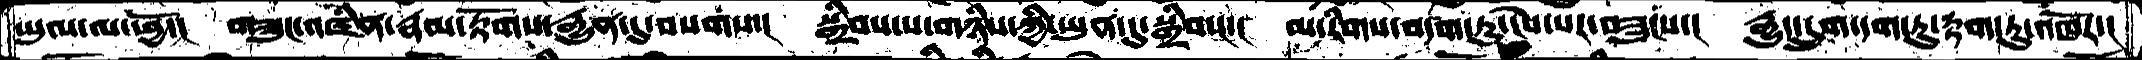ཡུལ་ལ་ཕྱོ་།  གཟུང་འཛིན་རྣམ་རྟོགས་རྒྱུན་དུ་བསགས་།  སྒྲིབ་པ་གཉིས་ཀྱི་ཡུན་དུ་སྒྲིབས་།  མ་རིགས་བདག་ཏུ་ངེས་པར་བཟུངས་།  རྒྱུད་དྲུག་དག་ཏུ་རྟག་ཏུ་འཁོར་།
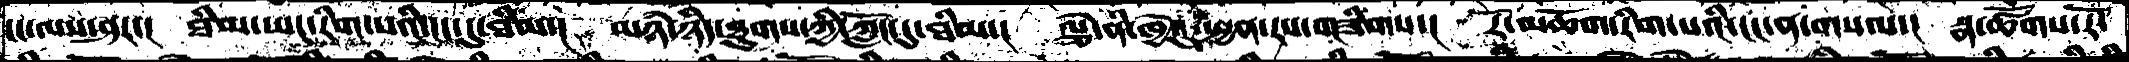ངང་ལས་ཤར་།  ཐིམ་ཡང་རིག་པའི་ངང་དུ་ཐིམ་།  མཉཾ་ཉིད་ཐུགས་ཀྱི་ཀློང་དུ་ཐིམ་།  ལྕེ་ནི་ཁྱེའུ་སྤྱན་རས་གཟིགས་།  རོ་མཆོག་རིག་པའི་ངང་ན་གསལ་།  སྣ་ཚོགས་རོ་
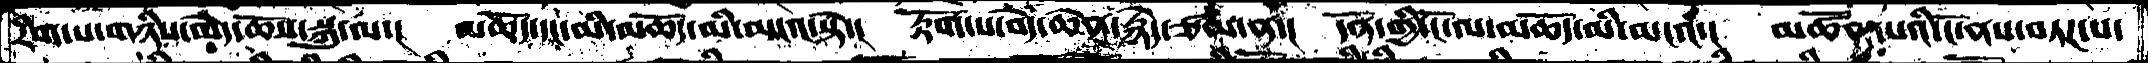རིག་པ་གཉིས་མེད་ཆོས་སྐུ་ལ་།  མཆོད་དང་མི་མཆོད་མི་མངའ་སྟེ་།  རྟོག་པ་བདེ་ཆེན་རྙེད་ཙམ་ན་།  དོན་གྱི་ངོ་ལ་མཆོད་མི་མངའ་།  མཚོན་པའི་ངོ་ནས་བཏཌ་པ་
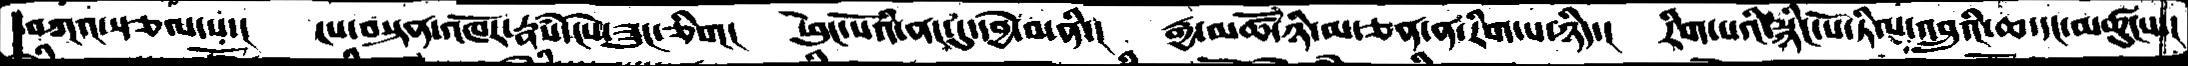བཀའ་སྩལ་པ་།   ངས་བསྟན་འཁོར་རྣཾས་ངེས་ཟུང་ཅིག།  ཕུང་པོའི་ནང་དུ་དབྱེ་བ་ནི་།  རྒྱ་མཚོ་ཉི་མ་ཅན་ན་རིག་པ་ཉིད་།  རིག་པའི་སྙིང་པོ་ཏིལ་འབྲུའི་ཆ་དང་མཚུངས་།
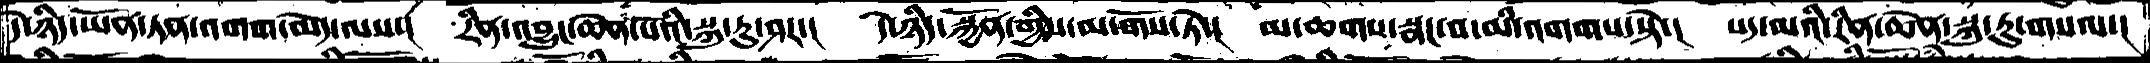དེ་ཉིད་ཡོན་ཏན་འགག་མེད་ལས་།  རིན་འབྱུང་ཆེན་པོའི་སྐུ་རུ་ཤར་།  དེ་ཉིད་སྐྱོན་གྱིས་མ་གོས་ཏེ་།  མ་ཆགས་སྣང་བ་མི་འགགས་སྟེ་།  པད་མའི་རིན་ཆེན་སྐུ་རུ་གསལ་།
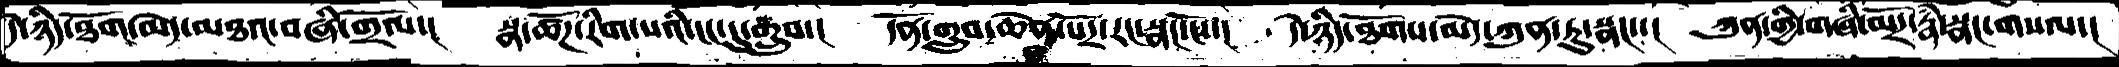དེ་ཉིད་ཐོག་མེད་མཐའ་བཞི་གྲོལ་།  སྣ་ཚོཌ་རིག་པའི་ངང་དུ་གྲུབ་།  དོན་གྲུབ་ཆེན་པོར་རང་སྣང་ངོ་་།  དེ་ཉིད་ཐོགས་མེད་ཀུན་ཏུ་སྣང་་།  ཀུན་གྱི་གཞི་མོར་རྣཾ་སྣང་གསལ་།
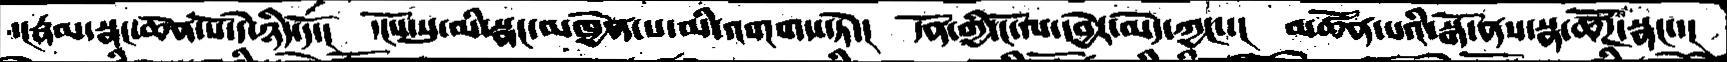་།རྣམ་སྣང་ཆེན་པོ་དེ་ཉིད་དོ་།  དངོས་སུ་མི་སྣང་མཁྱེན་པ་མི་འགགས་ཏེ་།   དོན་གྱི་ངོ་ལ་དབྱེར་མེད་ཀྱང་་།  མཚོན་པའི་སྒོ་ནས་སྣ་ཚོཌ་སྣང་་།
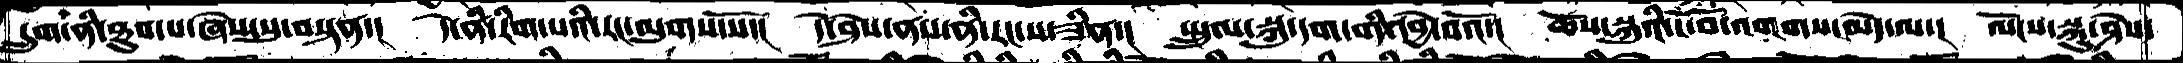དྲུག་ནི་ཐུབ་པ་ཞེས་སུ་བསྟན་།  དེ་ནི་རིག་པའི་རང་ལུགས་སོ་།  དེ་ཤེས་ནས་ནི་རང་ས་ཟིན་།  སྤྲུལ་སྐུ་དག་གི་དབྱེ་བའོ་།  ཆོས་སྐུའི་ངོ་བོ་འགགས་མེད་ལ་།  ལོངས་སྐུ་ཤེས་
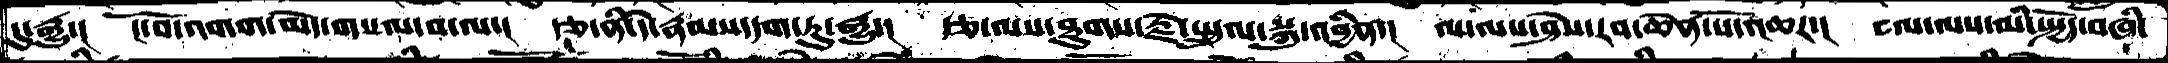དུ་རྒྱུ་།  ངོ་བོ་འགག་མེད་གསལ་བ་ལ་།  རྩ་ནི་དེ་རྣམས་དག་ཏུ་རྒྱུ་།  རྩ་ལས་ཐུགས་རྗེ་སྤྲུལ་སྐུ་འབྱིན་།  ལ་ལས་ཤེས་རབ་ཆེན་པོ་འཆར་།  བལ་ལས་མི་སྤྱོད་བཞི་
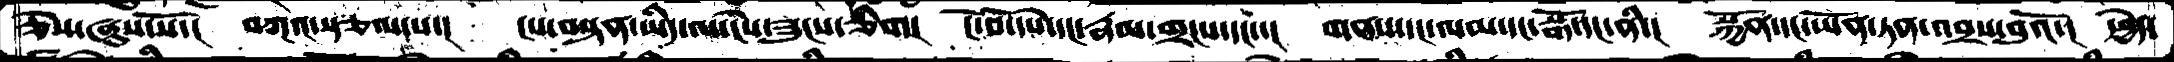ཅེས་ཞུས་སོ་།   བཀའ་སྩལ་པ་།  ངས་བསྟན་ཡིད་ལ་ངེས་ཟུངས་ཅིག།  ངོ་བོ་དཔེ་དང་རྣམ་གྲངས་དང་།  གནས་དང་ལམ་དང་སྒོ་དང་ནི་།  སྐྱོན་དང་ཡོན་ཏན་འབྲས་བུའོ་།  ཕྱེད་
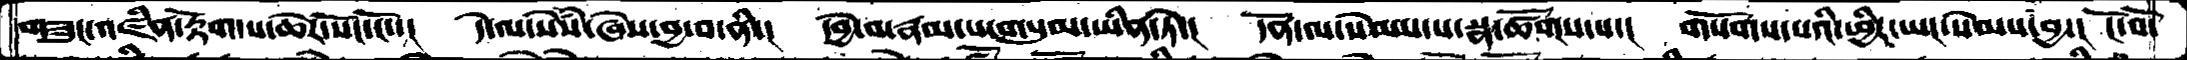གཟུང་འཛིན་རྟོག་པ་ཆེར་སོང་ངོ་་།  དེ་ལ་སེཾས་ཞེས་བྱ་བ་ནི་།  དབྱེ་བ་རྣམ་པ་གསུམ་ཡིན་ཏེ་།  དོན་ལ་སེམས་པ་སྣ་ཚོགས་པ་།   གསོགས་པའི་ཕྱིར་ཡང་སེམས་བྱ་།  ངོ་བོ་
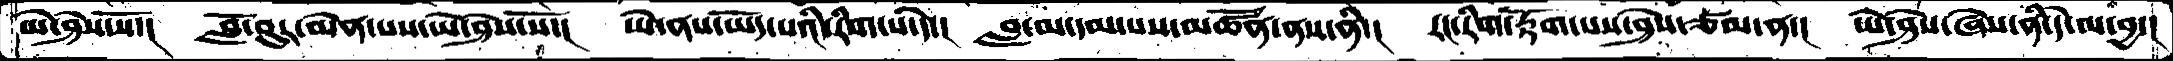ཡེ་ཤེས་སོ་།   བློ་བུར་མེན་པས་ཡེ་ཤེས་སོ་།  ཡེ་ནས་ཡོད་པའི་རིག་པ་དེ་།  བླ་མ་དམ་པས་མཚོན་ནས་ནི་།  རང་རིག་རྟོག་པས་ཤེས་ཙམ་ན་།  ཡེ་ཤེས་ཞེས་ནི་དེ་ལ་བྱ་།
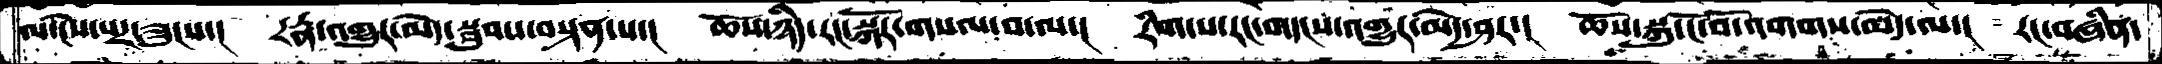ལ་ངེས་པར་ཟུངས་།   རཏྣ་འགྱུར་མེད་སྦུབས་བསྟན་པ་།  ཆོས་ཉིད་རང་སྐོར་གསལ་བ་ལ་།  རིག་པ་རང་གདངས་འགྱུར་མེད་ཤར་།  ཆོས་སྐུ་ངོ་བོ་འགགས་མེད་ལ་།  རང་བཞིན་
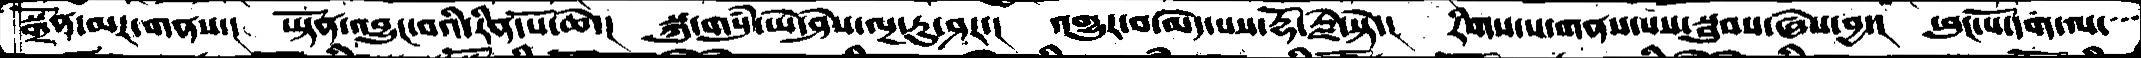སྒྲོན་མར་གནས་།   ཡྟོན་འབྱུང་བའི་རིན་པོ་ཆེ་།  སྐུ་གསུཾ་ཡེ་ཤེས་ལྔ་རུ་ཤར་།  འགྱུར་བ་མེད་པས་རྡོ་རྗེ་སྟེ་།  རིགས་པ་གནས་པས་སྦུབས་ཞེས་བྱ་།  ཕུང་པོ་དག་ལ་
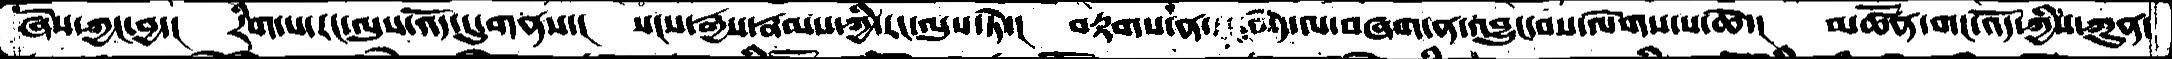ཞེས་ཀྱང་བྱ་།  རིག་པ་རང་ལུས་འོད་དུ་གནས་།  སངས་རྒྱས་རྣམས་ཀྱི་རང་ལུས་ཏེ་།  བརྟགས་ན་  མེད་ལ་བཞག་ན་འབྱུང་བས་ལེགས་པ་ཆེ་།  མཚོན་གང་འོད་ཀྱིས་ཀུན་
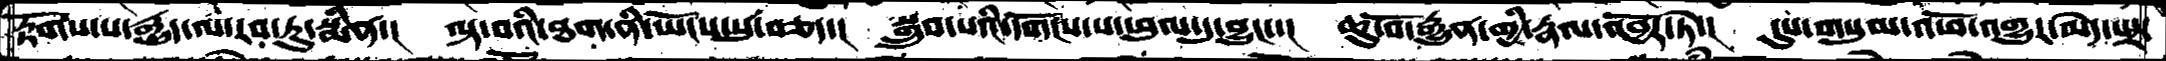རྟོགས་པ་རྒྱུད་ལ་རབ་ཏུ་སྨིན་།  ལྟ་བའི་ཐག་ནི་ཡོངས་སུ་བཅད་།   སྒྲུབ་པའི་དགོངས་པ་ཕུལ་དུ་བྱུང་་།  ཆུ་བོ་རྒྱུན་གྱི་རྣལ་འབྱོར་ཏེ་།   དུས་གསུམ་འཕོ་འགྱུར་མེད་པར་
